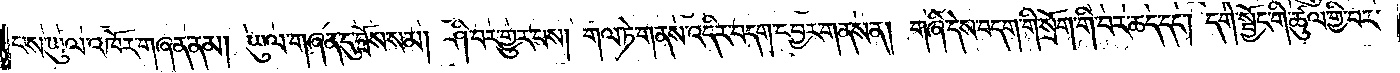པས་ཡུལ་འཁོར་གཞན་ནམ། ཡུལ་གཞན་དུ་བྲོས་སམ། ཤི་བར་གྱུར་པས། གལ་ཏེ་གནས་འདིར་བདག་དབྱར་གནས་ན། གཞི་དེས་བདག་གི་སྲོག་གི་བར་ཆད་དང༌། དགེ་སྦྱོང་གི་ཚུལ་གྱི་བར་
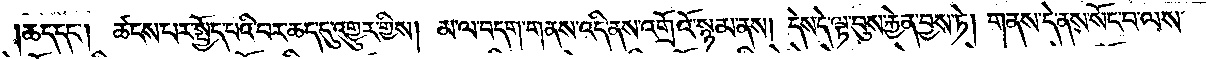།ཆད་དང༌། ཚངས་པར་སྤྱོད་པའི་བར་ཆད་དུ་འགྱུར་གྱིས། མ་ལ་བདག་གནས་འདི་ནས་འགྲོའོ་སྙམ་ནས། དེས་དེ་ལྟ་བུས་རྐྱེན་བྱས་ཏེ། གནས་དེ་ནས་སོང་བ་ལས་
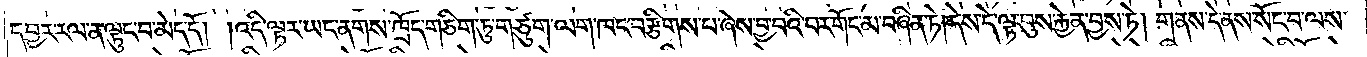དབྱར་རལ་ན་ལྟུང་བ་མེད་དོ། །འདི་ལྟར་ཡང་ནགས་ཁྲོད་གཅིག་ཏུ་གཙུག་ལག་ཁང་བརྩིགས་པ་ཞེས་བྱ་བའི་བར་གོང་མ་བཞིན་ཏེ། དེས་དེ་ལྟ་བུས་རྐྱེན་བྱས་ཏེ། གནས་དེ་ནས་སོང་བ་ལས་
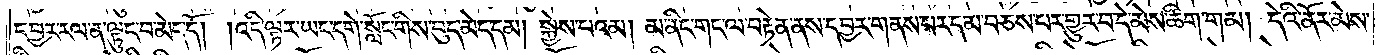དབྱར་རལ་ན་ལྟུང་བ་མེད་དོ། །འདི་ལྟར་ཡང་དགེ་སློང་གིས་བུད་མེད་དམ། སྐྱེས་པའམ། མ་ནིང་གང་ལ་བརྟེན་ནས་དབྱར་གནས་པར་དམ་བཅས་པར་གྱུར་བ་དེ་མེས་ཚིག་གམ། དེའི་ནོར་མེས་
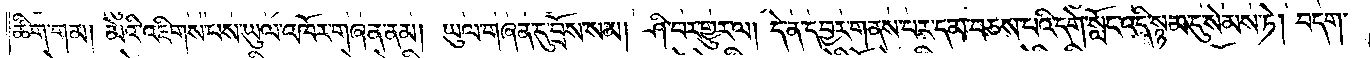ཚིག་གམ། མེའི་འཇིགས་པས་ཡུལ་འཁོར་གཞན་ནམ། ཡུལ་གཞན་དུ་བྲོས་སམ། ཤི་བར་གྱུར་ལ། དེ་ན་དབྱར་གནས་པར་དམ་བཅས་པའི་དགེ་སློང་འདི་སྙམ་དུ་སེམས་ཏེ། བདག་
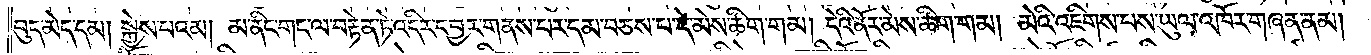བུད་མེད་དམ། སྐྱེས་པའམ། མ་ནིང་གང་ལ་བརྟེན་ཏེ་འདིར་དབྱར་གནས་པར་དམ་བཅས་པ་དེ་མེས་ཚིག་གམ། དེའི་ནོར་མེས་ཚིག་གམ། མེའི་འཇིགས་པས་ཡུལ་འཁོར་གཞན་ནམ།
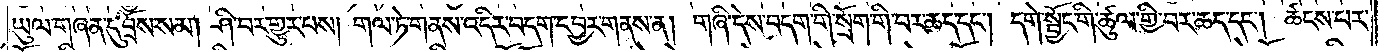ཡུལ་གཞན་དུ་བྲོས་སམ། ཤི་བར་གྱུར་པས། གལ་ཏེ་གནས་འདིར་བདག་དབྱར་གནས་ན། གཞི་དེས་བདག་གི་སྲོག་གི་བར་ཆད་དང༌། དགེ་སྦྱོང་གི་ཚུལ་གྱི་བར་ཆད་དང༌། ཚངས་པར་
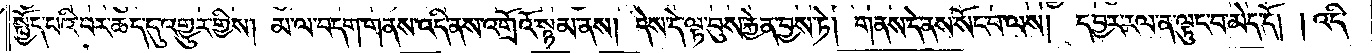སྤྱོད་པའི་བར་ཆད་དུ་འགྱུར་གྱིས། མ་ལ་བདག་གནས་འདི་ནས་འགྲོའོ་སྙམ་ནས། དེས་དེ་ལྟ་བུས་རྐྱེན་བྱས་ཏེ། གནས་དེ་ནས་སོང་བ་ལས། དབྱར་རལ་ན་ལྟུང་བ་མེད་དོ། །འདི་
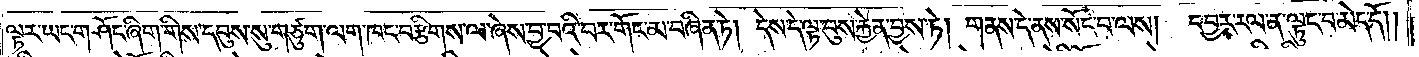ལྟར་ཡང་གཤོང་ཞིག་གིས་དབུས་སུ་གཙུག་ལག་ཁང་བརྩིགས་ལ་ཞེས་བྱ་བའི་བར་གོང་མ་བཞིན་ཏེ། དེས་དེ་ལྟ་བུས་རྐྱེན་བྱས་ཏེ། གནས་དེ་ནས་སོང་བ་ལས།  དབྱར་རལ་ན་ལྟུང་བ་མེད་དོ༎
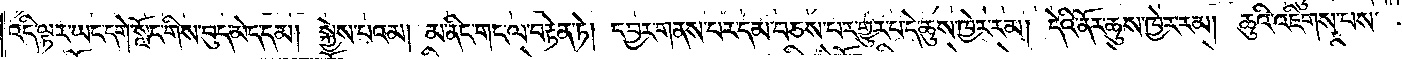འདི་ལྟར་ཡང་དགེ་སློང་གིས་བུད་མེད་དམ། སྐྱེས་པའམ། མ་ནིང་གང་ལ་བརྟེན་ཏེ། དབྱར་གནས་པར་དམ་བཅས་པར་གྱུར་པ་དེ་ཆུས་ཁྱེར་རམ། དེའི་ནོར་ཆུས་ཁྱེར་རམ། ཆུའི་འཇིགས་པས་
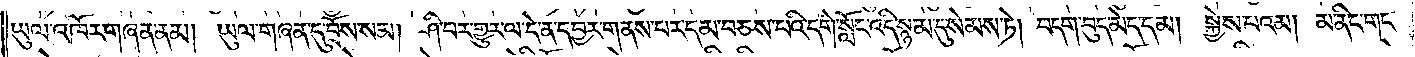ཡུལ་འཁོར་གཞན་ནམ། ཡུལ་གཞན་དུ་བྲོས་སམ། ཤི་བར་གྱུར་ལ་དེ་ན་དབྱར་གནས་པར་དམ་བཅས་བའི་དགེ་སློང་འདི་སྙམ་དུ་སེམས་ཏེ། བདག་བུད་མེད་དམ། སྐྱེས་པའམ། མ་ནིང་གང་
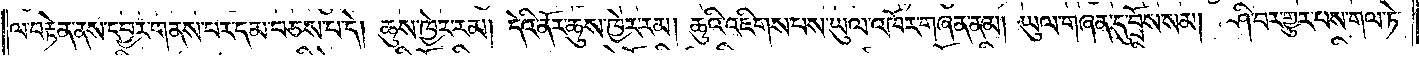ལ་བརྟེན་ནས་དབྱར་གནས་པར་དམ་བཅས་པ་དེ། ཆུས་ཁྱེར་རམ། དེའི་ནོར་ཆུས་ཁྱེར་རམ། ཆུའི་འཇིགས་པས་ཡུལ་འཁོར་གཞན་ནམ། ཡུལ་གཞན་དུ་བྲོས་སམ། ཤི་བར་གྱུར་པས་གལ་ཏེ་
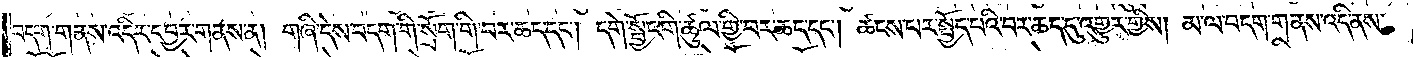བདག་གནས་འདིར་དབྱར་གནས་ན། གཞི་དེས་བདག་གི་སྲོག་གི་བར་ཆད་དང༌། དགེ་སྦྱོང་གི་ཚུལ་གྱི་བར་ཆད་དང༌། ཚངས་པར་སྤྱོད་པའི་བར་ཆད་དུ་འགྱུར་གྱིས། མ་ལ་བདག་གནས་འདི་ནས་
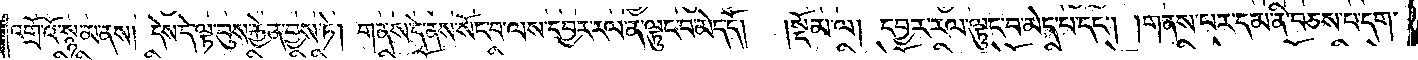འགྲོ་འོ་སྙམ་ནས། དེས་དེ་ལྟ་བུས་རྐྱེན་བྱས་ཏེ། གནས་དེ་ནས་སོང་བ་ལས་དབྱར་རལ་ན་ལྟུང་བ་མེད་དོ། །སྡོམ་ལ། དབྱར་རལ་ལྟུང་བ་མེད་པ་དང༌། །གནས་པར་དམ་ནི་བཅས་པ་དག་
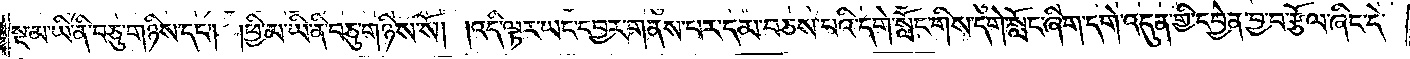སྔ་མ་ཡི་ནི་བཅུ་གཉིས་དང༌། །ཕྱི་མ་ཡི་ནི་བཅུ་གཉིས་སོ། །འདི་ལྟར་ཡང་དབྱར་གནས་པར་དམ་བཅས་བའི་དགེ་སློང་གིས་དགེ་སློང་ཞིག་དགེ་འདུན་གྱི་དབྱེན་བྱ་བ་རྩོལ་ཞིང་དེ་
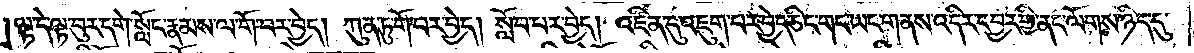ལྟ་དེ་ལྟ་བུར་དགེ་སློང་རྣམས་ལ་གོ་བར་བྱེད། ཀུན་ཏུ་གོ་བར་བྱེད། སློབ་པར་བྱེད། འཛིན་དུ་འཇུག་པར་བྱེད་ཅིང་གང་ཡང་གནས་འདིར་དབྱར་གྱི་ནང་ལོགས་ཉིད་དུ་
